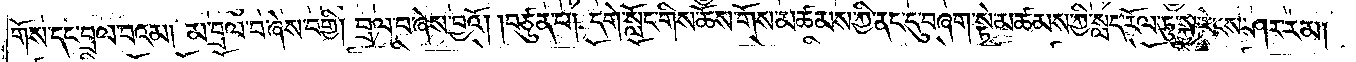གོས་དང་བྲལ་བའམ། མ་བྲལ་བ་ཞེས་བགྱི། བྲལ་བ་ཞེས་བྱའོ། །བཙུན་པ། དགེ་སློང་གིས་ཆོས་གོས་མཚམས་ཀྱི་ནང་དུ་བཞག་སྟེ་མཚམས་ཀྱི་སླད་རོལ་ཏུ་སྐྱ་རེངས་ཤར་རམ།
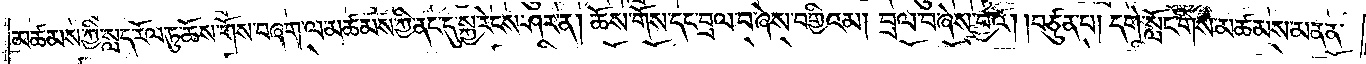མཚམས་ཀྱི་སླད་རོལ་ཏུ་ཆོས་གོས་བཞག་ལ་མཚམས་ཀྱི་ནང་དུ་སྐྱ་རེངས་ཤར་ན། ཆོས་གོས་དང་བྲལ་བ་ཞེས་བགྱིའམ། བྲལ་བ་ཞེས་བྱའོ། །བཙུན་པ། དགེ་སློང་གིས་མཚམས་མནན་
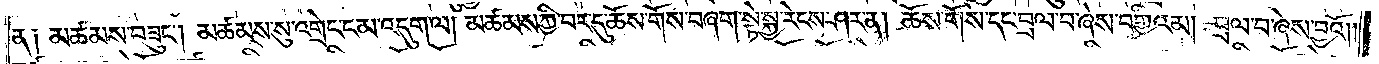ན༑ མཚམས་བཟུང༌། མཚམས་སུ་འགྲེང་ངམ་འདུག་ལ། མཚམས་ཀྱི་བར་དུ་ཆོས་གོས་བཞག་སྟེ་སྐྱ་རེངས་ཤར་ན། ཆོས་གོས་དང་བྲལ་བ་ཞེས་བགྱིའམ། བྲལ་བ་ཞེས་བྱའོ། །
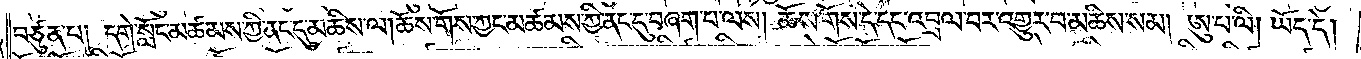བཙུན་པ། དགེ་སློང་མཚམས་ཀྱི་ནང་དུ་མཆིས་ལ།ཆོས་གོས་ཀྱང་མཚམས་ཀྱི་ནང་དུ་བཞག་པ་ལས། ཆོས་གོས་དེ་དང་འབྲལ་བར་འགྱུར་བ་མཆིས་སམ། ཨུ་པ་ལི། ཡོད་དེ།
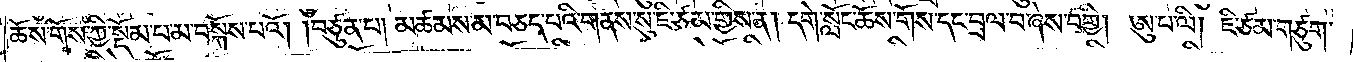ཆོས་གོས་ཀྱི་སྡོམ་པ་མ་བསྐོས་པའོ། །བཙུན་པ། མཚམས་མ་བཅད་པའི་གནས་སུ་ཇི་ཙམ་གྱིས་ན། དགེ་སློང་ཆོས་གོས་དང་བྲལ་བ་ཞེས་བགྱི། ཨུ་པ་ལི། ཇི་ཙམ་གཙུག་
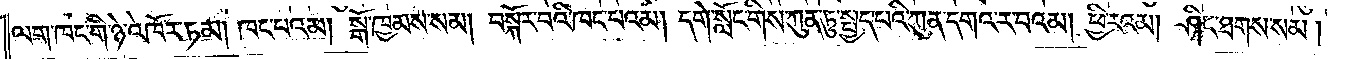ལག་ཁང་གི་ཉེ་འཁོར་ཏམ། ཁང་པའམ། སྒོ་ཁྱམས་སམ། བསྐོར་བའི་ཁང་པའམ། དགེ་སློང་གིས་ཀུན་ཏུ་སྤྱད་པའི་ཀུན་དགའ་ར་བའམ། ཕྱི་རའམ། ཤིང་ཐགས་སམ།
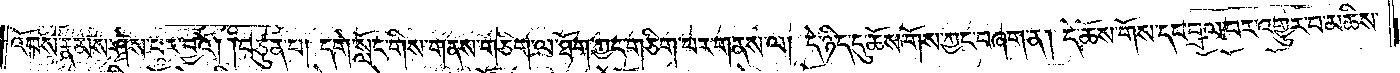འོ་བས་རྣམས་ཤེས་པར་བྱའོ། །བཙུན་པ། དགེ་སློང་གིས་གནས་གཅིག་ལ་ཐོག་ཀྱང་གཅིག་པར་གནས་ལ། དེ་ཉིད་དུ་ཆོས་གོས་ཀྱང་བཞག་ན། དེ་ཆོས་གོས་དང་བྲལ་བར་འགྱུར་བ་མཆིས་
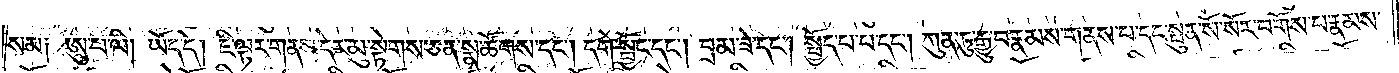སམ༑ ཨུ་པ་ལི། ཡོད་དེ། ཇི་ལྟར་གནས་དེར་མུ་སྟེགས་ཅན་སྣ་ཚོགས་དང༌། དགེ་སྦྱོང་དང༌། བྲམ་ཟེ་དང༌། སྤྱོད་པ་པ་དང༌། ཀུན་ཏུ་རྒྱུ་བ་རྣམས་གནས་པ་དང་སྤུན་སོ་སོར་བགོས་པ་རྣམས་
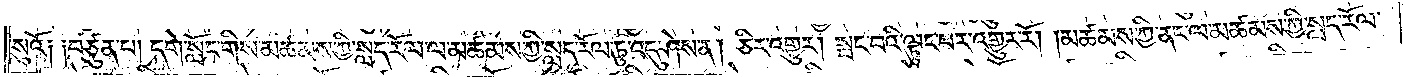སུའོ༑ ༑བཙུན་པ། དགེ་སློང་གིས་མཚམས་ཀྱི་སླད་རོལ་ལ་མཚམས་ཀྱི་སླད་རོལ་ཏུ་འདུ་ཤེས་ན། ཅིར་འགྱུར། སྤང་བའི་ལྟུང་བར་འགྱུར་རོ། །མཚམས་ཀྱི་ནང་ལ་མཚམས་ཀྱི་སླད་རོལ་
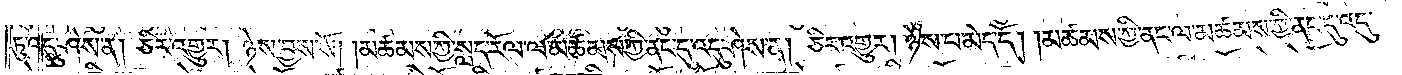ཏུ་འདུ་ཤེས་ན། ཅིར་འགྱུར། ཉེས་བྱས་སོ། །མཚམས་ཀྱི་སླད་རོལ་ལ་མཚམས་ཀྱི་ནང་དུ་འདུ་ཤེས་ན། ཅིར་འགྱུར། ཉེས་པ་མེད་དོ། །མཚམས་ཀྱི་ནང་ལ་མཚམས་ཀྱི་ནང་དུ་འདུ་
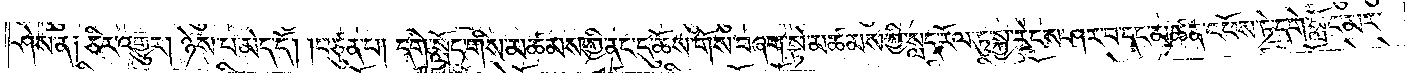ཤེས་ན༑ ཅིར་འགྱུར། ཉེས་པ་མེད་དོ། །བཙུན་པ། དགེ་སློང་གིས་མཚམས་ཀྱི་ནང་དུ་ཆོས་གོས་བཞག་སྟེ་མཚམས་ཀྱི་སླད་རོལ་ཏུ་སྐྱ་རེངས་ཤར་བ་དང་མཚན་འཕོས་ཏེ་དགེ་སློང་མར་
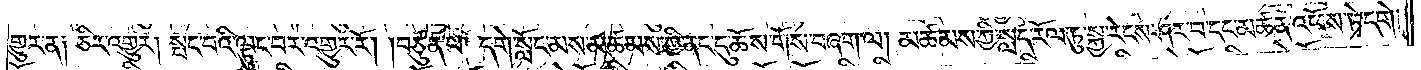གྱུར་ན༑ ཅིར་འགྱུར། སྤང་བའི་ལྟུང་བར་འགྱུར་རོ། །བཙུན་པ། དགེ་སློང་མས་མཚམས་ཀྱི་ནང་དུ་ཆོས་གོས་བཞག་ལ། མཚམས་ཀྱི་སླད་རོལ་ཏུ་སྐྱ་རེངས་ཤར་བ་དང་མཚན་འཕོས་ཏེ་དགེ་
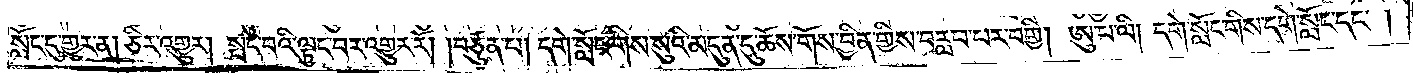སློང་དུ་གྱུར་ན། ཅིར་འགྱུར། སྤང་བའི་ལྟུང་བར་འགྱུར་རོ། །བཙུན་པ། དགེ་སློང་གིས་སུའི་མདུན་དུ་ཆོས་གོས་བྱིན་གྱིས་བརླབ་པར་བགྱི། ཨུ་པ་ལི། དགེ་སློང་གིས་དགེ་སློང་དང༌།
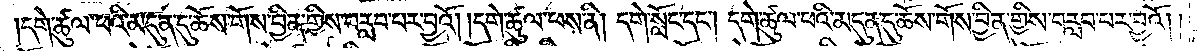དགེ་ཚུལ་ཕའི་མདུན་དུ་ཆོས་གོས་བྱིན་གྱིས་བརླབ་པར་བྱའོ། །དགེ་ཚུལ་ཕས་ནི། དགེ་སློང་དང༌། དགེ་ཚུལ་ཕའི་མདུན་དུ་ཆོས་གོས་བྱིན་གྱིས་བརླབ་པར་བྱའོ། །
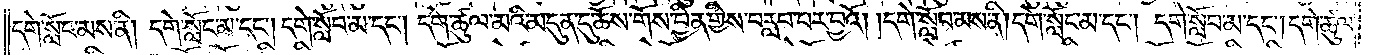དགེ་སློང་མས་ནི། དགེ་སློང་མ་དང༌། དགེ་སློབ་མ་དང༌། དགེ་ཚུལ་མའི་མདུན་དུ་ཆོས་གོས་བྱིན་གྱིས་བརླབ་པར་བྱའོ། །དགེ་སློབ་མས་ནི། དགེ་སློང་མ་དང༌། དགེ་སློབ་མ་དང༌། དགེ་ཚུལ་
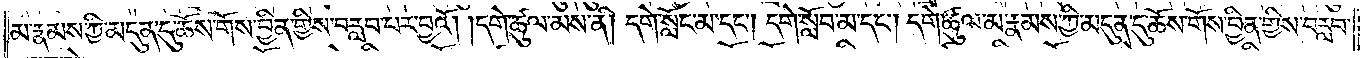མ་རྣམས་ཀྱི་མདུན་དུ་ཆོས་གོས་བྱིན་གྱིས་བརླབ་པར་བྱའོ། །དགེ་ཚུལ་མས་ནི། དགེ་སློང་མ་དང༌། དགེ་སློབ་མ་དང༌། དགེ་ཚུལ་མ་རྣམས་ཀྱི་མདུན་དུ་ཆོས་གོས་བྱིན་གྱིས་བརླབ་
